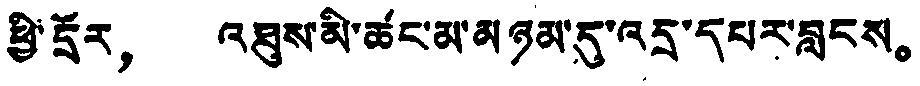ཕྱི་དྲོར， འཐུས་མི་ཚང་མ་མཉམ་དུ་འདྲ་དཔར་བླངས。
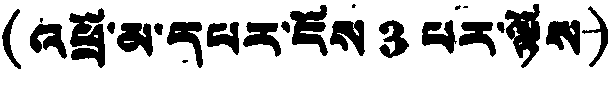(འཕྲོ་མ་དཔར་ངོས་ 3 པར་ལྟོས)
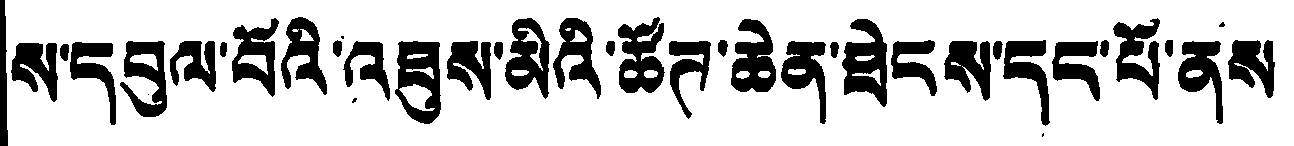ས་དབུལ་བོའི་འཐུས་མིའི་ཚོཊ་ཆེན་ཐེངས་དང་པོ་ནས
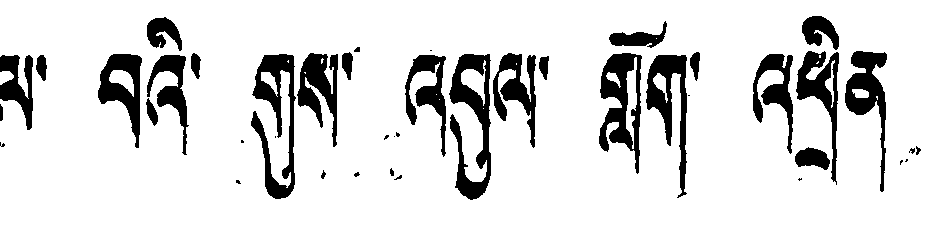ལ་ བའི་ གུས་ འབུལ བློག་ འཕྲིན
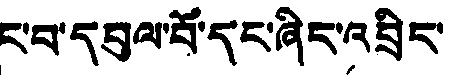ང་བ་དབུལ་བོ་དང་ཞིང་འབྲིང་
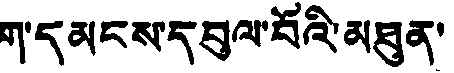ག་དམངས་དབུལ་བོའི་མཐུན་
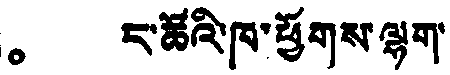。 ང་ཚོའི་ཁ་ཕྱོགས་ལྷག་
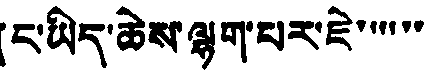ང་ཡིད་ཆེས་ལྷག་པར་ཇེ་་་་་་
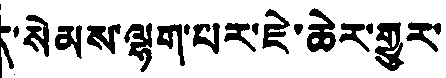་སེམས་ལྷག་པར་ཇེ་ཆེར་གྱུར་
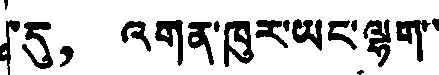་དུ， འགན་ཁུར་ཡང་ལྷག་་
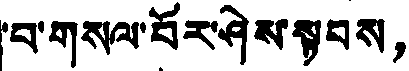བ་གསལ་པོར་ཤེས་སྟབས，
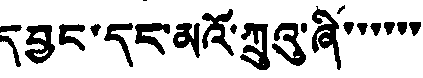དབྱང་དང་མའོ་ཀྲུའུ་ཞི་་་་་་་
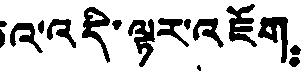འ་འདི་ལྟར་འཇོག：
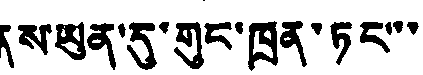ས་ཡུན་དུ་གུང་ཁྲན་ཏང་་་
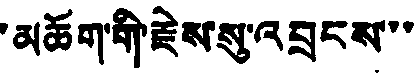་མཆོག་གི་རྗེས་སུ་འབྲངས་་་
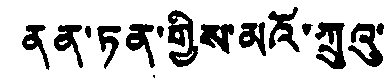ནན་ཏན་གྱིས་མའོ་ཀྲུའུ་
